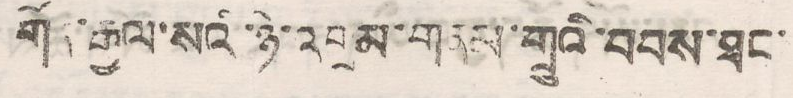གོན་རྒྱལ་སའི་ཉེ་འབྲམ་གནམ་གྲུའི་བབས་ཐང་
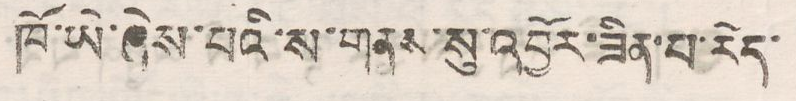ཁོ་ཡེ་ཞེས་པའི་ས་གནས་སུ་འབྱོར་ཟིན་པ་རེད་
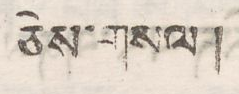ཅེས་གསལ།
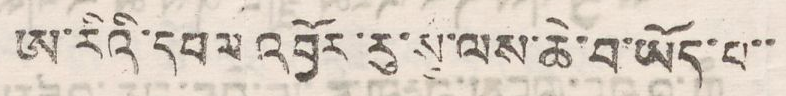ཨུ་རིའི་དཔལ འབྱོར་རུ་སུ་ལས་ཆེ་བ་ཡོད་པ་་
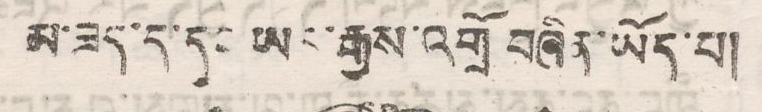མ་ཟད་ད་དུང ཡར་རྒྱས་འགྲོ བཞིན་ཡོད་པ།
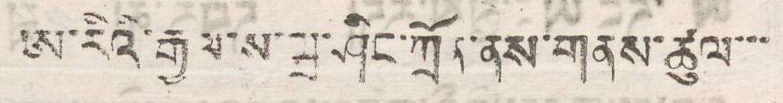ཨ་རིའི་རྒྱལ་ས་ཝ་ཤིང་ཀྲོན་ནས་གནས་ཚུལ་་་
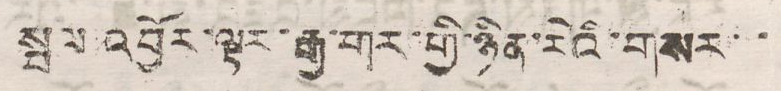སྦལ་འབྱོར་ལྟར་རྒྱ་གར་གྱི་ཉིན་རེའི་གསར་ ་
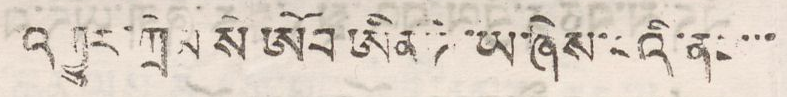འགྱུར་ཀྲེམ སེ ཨོབ་ཨིན་ཌི་ཡ་ཞེས་པའི་ནང་་་
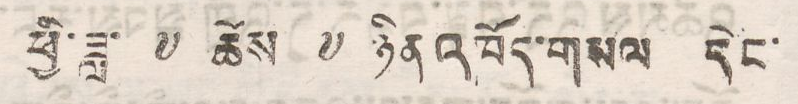ཕྱི་ཟླ་ ༧ ཚེས ༧ ཉིན་འཁོད་གསལ དེང་
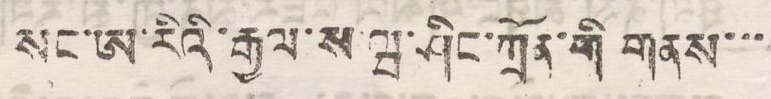སང་ཨ་རིའི་རྒྱལ་ས་ཝ་ཤིང་ཀྲོན་གི གནས་་་
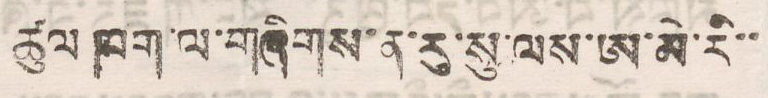ཚུལ ཁག་ལ་གཞིགས་ན་རུ་སུ་ལས་ཨ་མེ་རི་་
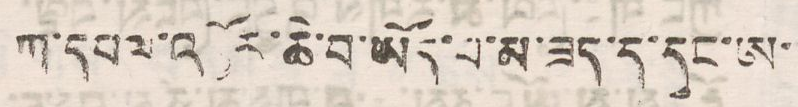ཀ་དཔལ་འབོར་ཆེ་བ་ཡོད་པ་མ་ཟད་ད་དུང་ཨ་
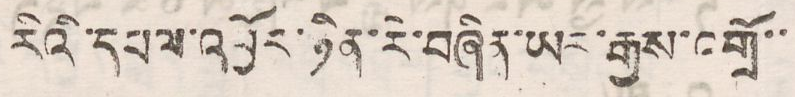རིའི་དཔལ་འབྱོར་ཉིན་རེ་བཞིན་ཡར་རྒྱས་འགྲོ་་
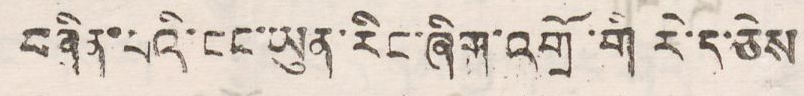བཞིན་པའི་ངང་ཡུན་རིང་ཞིག་འགྲོ་གི རེ་ད་ཅེས
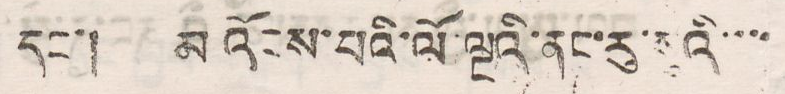དང་། མ འོངས་པའི་ལོ་ལྔའི་ནང་རུ་སུའི་་་་
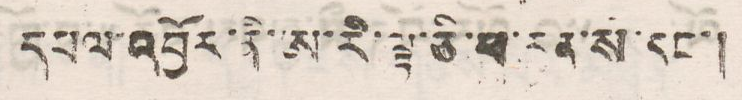དཔལ་འབྱོར་ནི་ཨ་རི་ལྟ་ཅི་ཕ་རན་ས་དང་།
